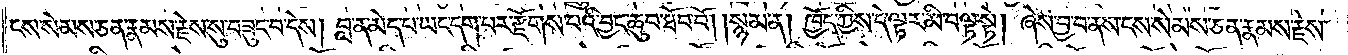ངས་སེམས་ཅན་རྣམས་རྗེས་སུ་བཟུང་བ་དེས། བླ་ན་མེད་པ་ཡང་དག་པར་རྫོགས་པའི་བྱང་ཆུབ་ཐོབ་བོ། །སྙམ་ན། ཁྱོད་ཀྱིས་དེ་ལྟར་མི་བལྟ་སྟེ། ཞེས་བྱ་བ་ནས་ངས་སེམས་ཅན་རྣམས་རྗེས་
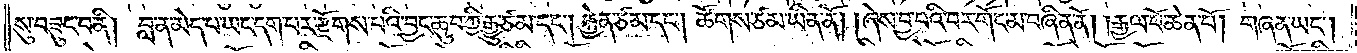སུ་བཟུང་བ་ནི། བླ་ན་མེད་པ་ཡང་དག་པར་རྫོགས་པའི་བྱང་ཆུབ་ཀྱི་རྒྱུ་ཙམ་དང༌། རྐྱེན་ཙམ་དང༌། ཚོགས་ཙམ་ཡིན་ནོ། །ཞེས་བྱ་བའི་བར་གོང་མ་བཞིན་ནོ། །རྒྱལ་པོ་ཆེན་པོ། གཞན་ཡང༌།
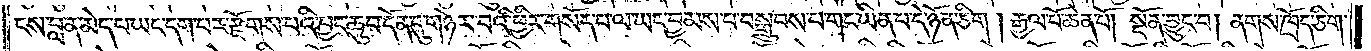ངས་བླ་ན་མེད་པ་ཡང་དག་པར་རྫོགས་པའི་བྱང་ཆུབ་དོན་དུ་གཉེར་བའི་ཕྱིར་གསོད་པ་ལ་ཡང་བྱམས་པ་བསྒྲུབས་པ་གང་ཡིན་པ་དེ་ཉོན་ཅིག །རྒྱལ་པོ་ཆེན་པོ། སྔོན་བྱུང་བ། ནགས་ཁྲོད་ཅིག་
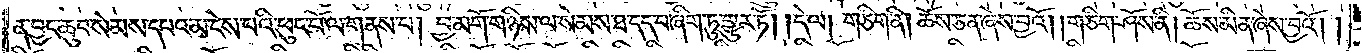ན་བྱང་ཆུབ་སེམས་དཔའ་མ་ངེས་པའི་ཕུང་པོ་ལ་གནས་པ། བྱ་མགོ་གཉིས་ལ་སེམས་ཐ་དད་པ་ཞིག་ཏུ་གྱུར་ཏོ། །དེ་ལ། གཅིག་ནི། ཆོས་ཅན་ཞེས་བྱའོ། །གཅིག་ཤོས་ནི། ཆོས་མིན་ཞེས་བྱའོ། །
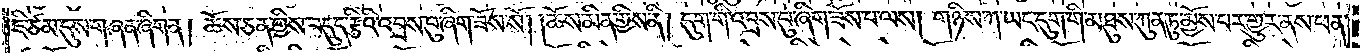ཇི་ཙམ་དུས་གཞན་ཞིག་ན། ཆོས་ཅན་གྱིས་བདུད་རྩིའི་འབྲས་བུ་ཞིག་ཟོས་སོ། །ཆོས་མིན་གྱིས་ནི། དུག་གི་འབྲས་བུ་ཞིག་ཟོས་པ་ལས། གཉིས་ཀ་ཡང་དུག་གི་མཐུས་ཀུན་ཏུ་མྱོས་པར་གྱུར་ནས་ཕན་
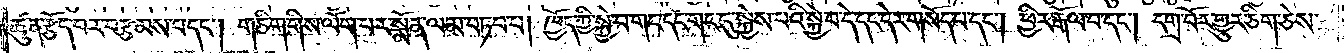ཚུན་རྩོད་པར་བརྩམས་པ་དང༌། གཅིག་གིས་ལོག་པར་སྨོན་ལམ་བཏབ་པ། ཁྱོད་ཀྱི་སྐྱེ་བ་གང་དང་གང་དུ་སྐྱེས་པའི་སྐྱེ་བ་དེ་དང་དེར་གསོད་པ་དང༌། ཕྱིར་རྒོལ་བ་དང༌། དགྲ་བོར་གྱུར་ཅིག་ཅེས་
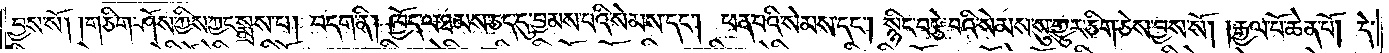བྱས་སོ། །གཅིག་ཤོས་ཀྱིས་ཀྱང་སྨྲས་པ། བདག་ནི། ཁྱོད་ལ་ཐམས་ཅད་དུ་བྱམས་པའི་སེམས་དང༌། ཕན་པའི་སེམས་དང༌། སྙིང་བརྩེ་བའི་སེམས་སུ་གྱུར་ཅིག་ཅེས་བྱས་སོ། །རྒྱལ་པོ་ཆེན་པོ། དེ་
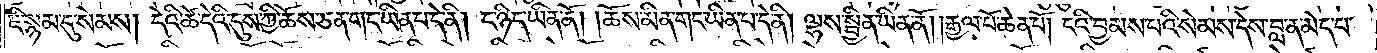ཇི་སྙམ་དུ་སེམས། དེའི་ཚེ་དེའི་དུས་ཀྱི་ཆོས་ཅན་གང་ཡིན་པ་དེ་ནི། ང་ཉིད་ཡིན་ནོ། །ཆོས་མིན་གང་ཡིན་པ་དེ་ནི། ལྷས་སྦྱིན་ཡིན་ནོ། །རྒྱལ་པོ་ཆེན་པོ། ངའི་བྱམས་པའི་སེམས་དེས་བླ་ན་མེད་པ་
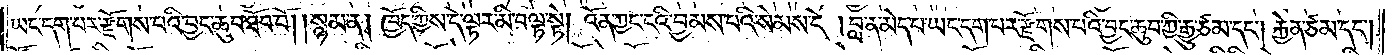ཡང་དག་པར་རྫོགས་པའི་བྱང་ཆུབ་ཐོབ་བོ། །སྙམ་ན། ཁྱོད་ཀྱིས་དེ་ལྟར་མི་བལྟ་སྟེ། འོན་ཀྱང་ངའི་བྱམས་པའི་སེམས་དེ། བླ་ན་མེད་པ་ཡང་དག་པར་རྫོགས་པའི་བྱང་ཆུབ་ཀྱི་རྒྱུ་ཙམ་དང༌། རྐྱེན་ཙམ་དང༌།
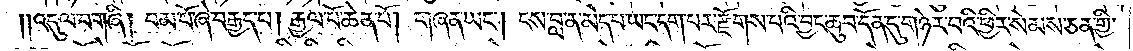༎ འདུལ་བ་གཞི། བམ་པོ་ཞེ་བརྒྱད་པ། རྒྱལ་པོ་ཆེན་པོ། གཞན་ཡང༌། ངས་བླ་ན་མེད་པ་ཡང་དག་པར་རྫོགས་པའི་བྱང་ཆུབ་དོན་དུ་གཉེར་བའི་ཕྱིར་སེམས་ཅན་གྱི་
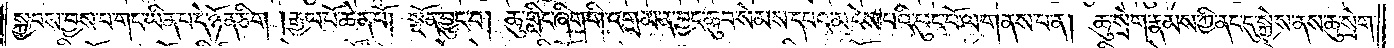སྐྱབས་བྱས་པ་གང་ཡིན་པ་དེ་ཉོན་ཅིག །རྒྱལ་པོ་ཆེན་པོ། སྔོན་བྱུང་བ། ཆུ་གླིང་ཞིག་གི་འགྲམ་ན་བྱང་ཆུབ་སེམས་དཔའ་མ་ངེས་པའི་ཕུང་པོ་ལ་གནས་པ་ན། ཆུ་སྲེག་རྣམས་ཀྱི་ནང་དུ་སྐྱེས་ནས་ཆུ་སྲེག་
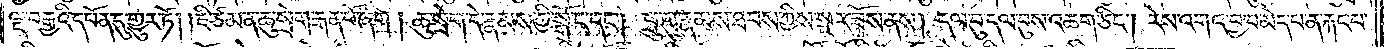ལྔ་བརྒྱའི་དཔོན་དུ་གྱུར་ཏོ། །ཇི་ཙམ་ན་ཆུ་སྲེག་རྒན་པོ་ཞིག །ཆུ་སྲེག་དེ་རྣམས་ཀྱི་སྒོ་ང་དང༌། ཕྲུ་གུ་རྣམས་ཐབས་ཀྱིས་སྔར་ཟོས་ནས། དལ་བུ་དལ་བུས་འཆག་ཅིང༌། རེས་འགའ་བྱ་བ་མེད་པ་ན་རྐང་པ་
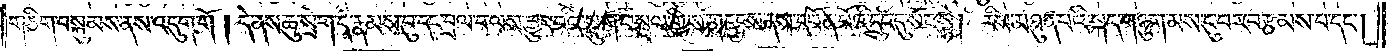གཅིག་བསྐུམས་ནས་འདུག་གོ །དེ་ནས་ཆུ་སྲེག་དེ་རྣམས་བུ་དང་བྲལ་བ་ལས་བྱུང་བའི་སྡུག་བསྔལ་གྱིས་གདུངས་ནས་དཔོན་པོའི་དྲུང་དུ་སོང་སྟེ། རིས་མཐུན་པའི་སྐད་གཉུག་མས་ངུ་བར་བརྩམས་པ་དང༌།
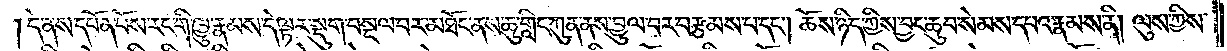དེ་ནས་དཔོན་པོས་རང་གི་ཁྱུ་རྣམས་དེ་ལྟར་སྡུག་བསྔལ་བར་མཐོང་ནས་ཆུ་གླིང་ཀུན་ནས་བྱུལ་བར་བརྩམས་པ་དང༌། ཆོས་ཉིད་ཀྱིས་བྱང་ཆུབ་སེམས་དཔའ་རྣམས་ནི། ལུས་ཀྱིས་
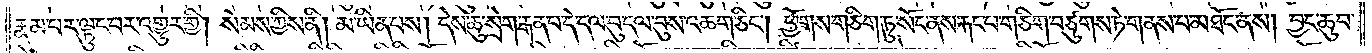རྣམ་པར་ལྟུང་བར་འགྱུར་གྱི། སེམས་ཀྱིས་ནི། མ་ཡིན་པས། དེས་ཆུ་སྲེག་རྒན་པ་དེ་དལ་བུ་དལ་བུས་འཆག་ཅིང༌། ཕྱོགས་གཅིག་ཏུ་སོང་ནས་རྐང་པ་གཅིག་བཙུགས་ཏེ་གནས་པ་མཐོང་ནས། བྱང་ཆུབ་
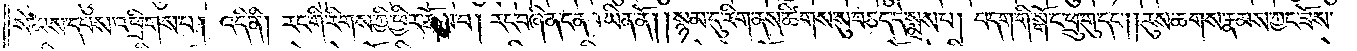སེམས་དཔས་འཕྲིགས་པ། འདི་ནི། རང་གི་རིགས་ཀྱི་ཕྱིར་རྒོལ་བ། རང་བཞིན་ངན་པ་ཡིན་ནོ། །སྙམ་དུ་རིག་ནས་ཚིགས་སུ་བཅད་དེ་སྨྲས་པ། བདག་གི་སྒོ་ང་ཕྲུ་གུ་དང༌། །རུས་ཆགས་རྣམས་ཀྱང་ཟོས་
